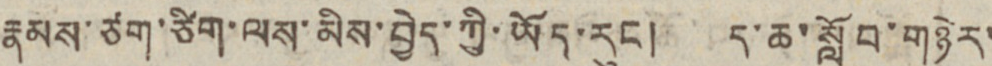རྣམས་ཙག་ཙིག་ལས་མིས་བྱེད་ཀྱི་ཡོད་རུང། ད་ཆ་སློབ་གཉེར་
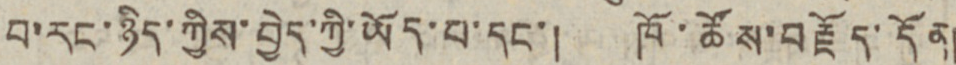བ་རང་ཉིད་ཀྱིས་བྱེད་ཀྱི་ཡོད་པ་དང་། ཁོ་ཚོས་བརྗོད་དོན།
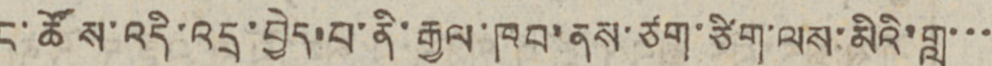ང་ཚོས་འདི་འདྲ་བྱེད་པ་ནི་རྒྱལ་ཁབ་ནས་ཙག་ཙིག་ལས་མིའི་གླ་་་
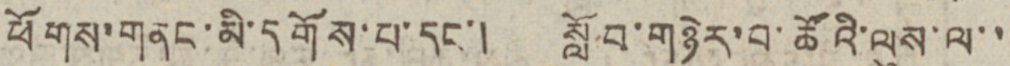ཕོགས་གནང་མི་དགོས་པ་དང་། སློབ་གཉེར་བ་ཚོའི་ལུས་ལ་་
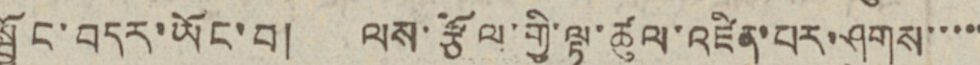སྦྱོང་བདར་ཡོང་བ། ལས་རྩོལ་གྱི་ལྟ་ཚུལ་འཛིན་པར་ཤུགས་་་་་
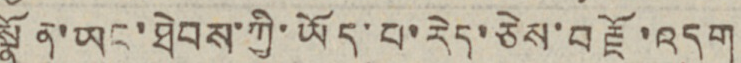སྣོན་ཡང་ཐེབས་ཀྱི་ཡོད་པ་རེད་ཅེས་བརྗོ་འདུག
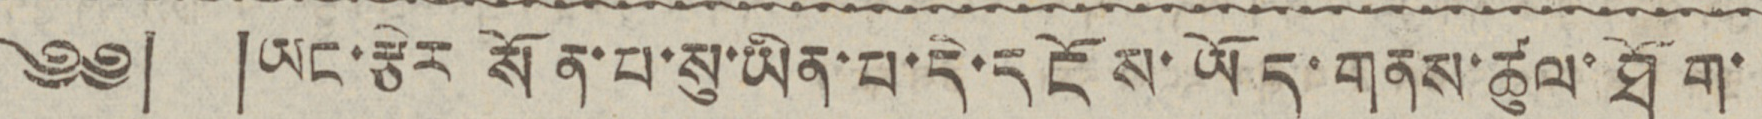༄༅། །ཡང་རྩེར སོན་པ་སུ་ཡིན་པ་དེ་དངོས་ཡོད་གནས་ཚལ་ཐོག་
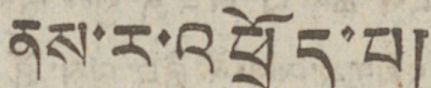ནས་ར་འཕྲོད་པ།
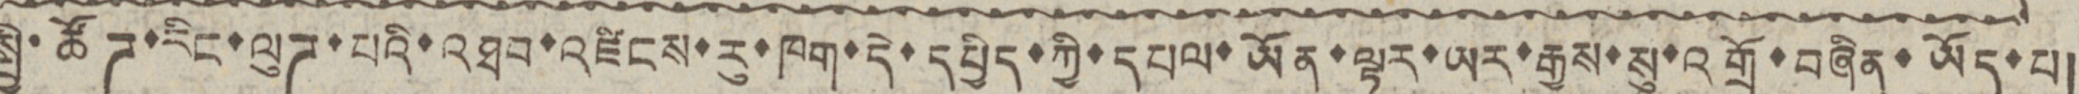སྤྱི་ཚོཊ་རིང་ལུཊ་པའི་འཐབ་འཛིངས་རུ་ཁག་དེ་དཔྱིད་ཀྱི་དཔལ་ཡོན་ལྟར་ཡར་རྒྱས་སུ་འགྲོ་བཞིན་ཡོད་པ།
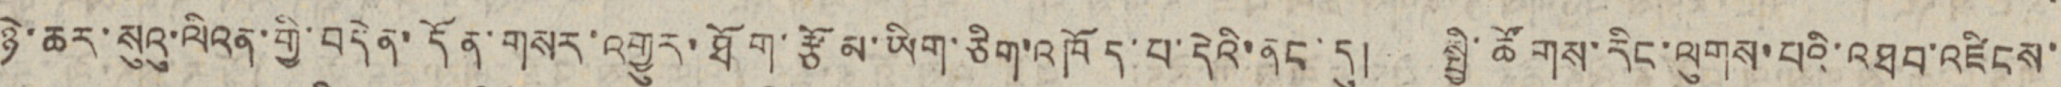ཉེ་ཆར་སུའུ་ལིའན་གྱི་བདེན་དོན་གསར་འགྱུར་ཐོག་རྩོམ་ཡིག་ཅིག་འཁོད་པ་དེའི་ནང་དུ། སྤྱི་ཚོགས་རིང་ལུགས་པའི་འཐབ་འཛིངས་
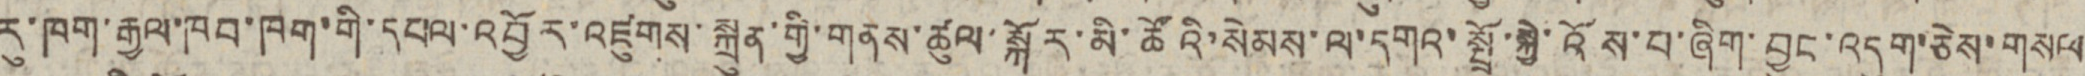རུ་ཁག་རྒྱལ་ཁབ་ཁག་གི་དཔལ་འབྱོར་འཛུགས་སྐྲུན་གྱི་གནས་ཚུལ་སྐོར་མི་ཚོའི་སེམས་ལ་དགའ་སྤྲོ་སྐྱེ་འོས་པ་ཞིག་བྱུང་འདུག་ཅེས་གསལ
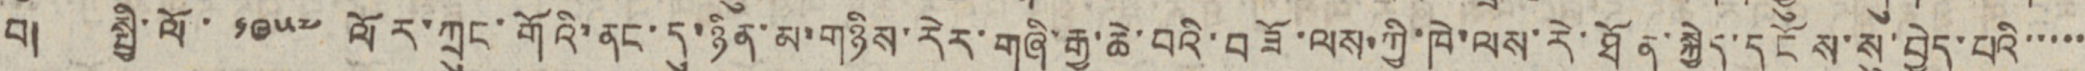བ། སྤྱི་ལོ་ ༡༩༥༧ ལོར་ཀྲུང་གོའི་ནང་དུ་ཉིན་མ་གཉིས་རེར་གཞི་རྒྱ་ཆེ་བའི་བཟོ་ལས་ཀྱི་ཁེ་ལས་རེ་ཐོན་སྐྱེད་དངོས་སུ་བྱེད་པའི་་་་་
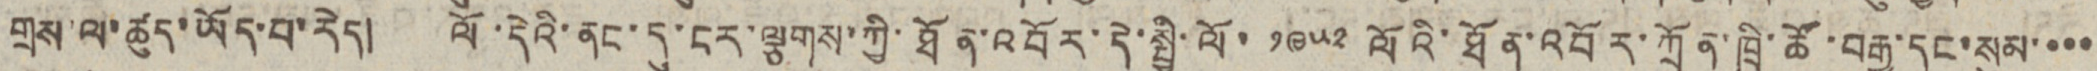གྲས་ལ་ཚུད་ཡོད་པ་རེད། ལོ་དེའི་ནང་དུ་ངར་ལྕགས་ཀྱི་ཐོན་འབོར་དེ་སྤྱི་ལོ་ ༡༩༥༢ ལོའི་ཐོན་འབོར་ཀྲོན་ཁྲི་ཚོ་བརྒྱ་དང་སུམ་་་་
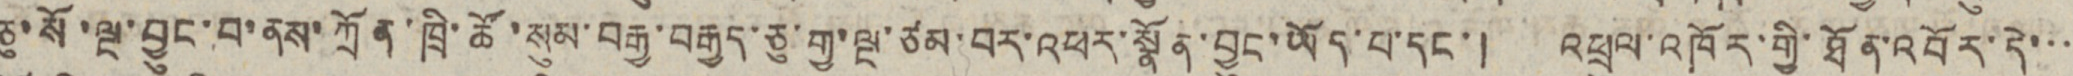ཅུ་སོ་ལྔ་བྱུང་བ་ནས་ཀྲོན་ཁྲི་ཚོ་སུམ་བརྒྱ་བརྒྱད་ཅུ་གྱ་ལྔ་ཙམ་བར་འཕར་སྣོན་བྱུང་ཡོད་པ་དང་། ཕྲུལ་འཁོར་གྱི་ཐོན་འབོར་དེ་་་
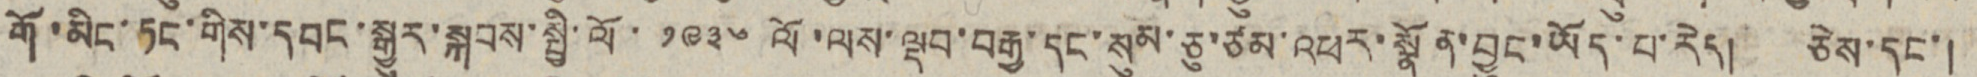གོ་མིང་ཏང་གིས་དབང་སྒྱུར་སྐབས་སྤྱི་ལོ་ ༡༩༣༦ ལོ་ལས་ལྡབ་བརྒྱ་དང་སུམ་ཅུ་ཙམ་འཕར་སྣོན་བྱུང་ཡོད་པ་རེད། ཅེས་དང་།
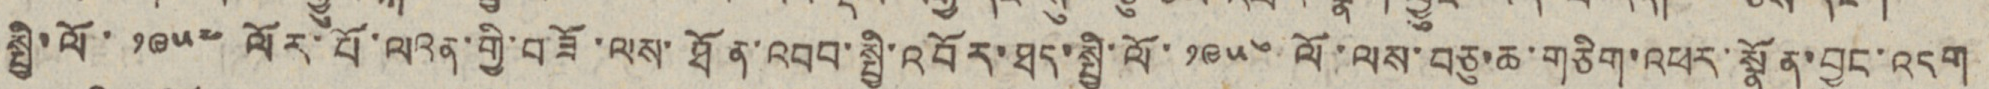སྤྱི་ལོ་ ༡༩༥༧ ལོར་པོ་ལའན་གྱི་བཟོ་ལས་ཐོན་འབབ་སྤྱི་འབོར་ཐད་སྤྱི་ལོ་ ༡༩༥༦ ལོ་ལས་བཅུ་ཆ་གཅིག་འཕར་སྣོན་བྱུང་འདུག
